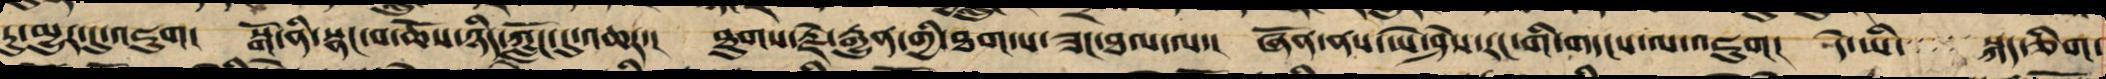རུ་མྱུར་དུ་འཇུག། སྒོ་ནི་སྣང་བ་ཆོས་ཉིད་ཀློང་དུ་འཆར་། ཐུགས་རྗེ་རྒྱུན་གྱི་ཐག་པ་ཟང་ཐལ་ལ་། ཞོན་ནས་ཡེ་ཤེས་རང་གི་གདངས་ལ་འཇུག། དེ་ཡི་་་་་་སྐད་ཅིག་
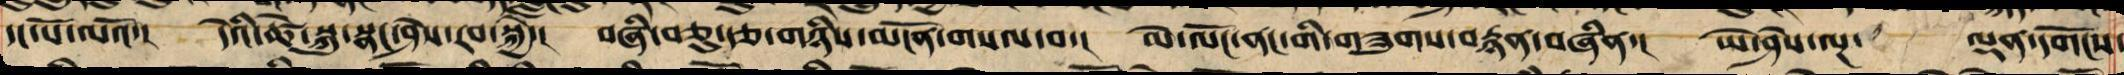དང་པོ་ལའོ་། དེའི་ཚེ་སྐུ་སྣང་ཤེས་རབ་སྐྱེ་། བཞི་བཅུ་རྩ་གཉིས་མངོན་གསལ་བ་། མེ་ལོང་ནང་གི་གཟུགས་བརྙན་བཞིན་། ཡེ་ཤེས་ལྔ་ ལྡན་དགོངས་
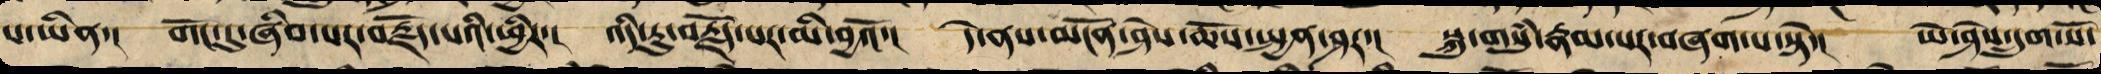པ་ཡིན་། གོང་དུ་ཞིབ་པར་བརྗོད་པའི་ཕྱིར་། འདི་རུ་བརྗོད་པར་མི་བྱའོ་། དེ་ནས་མངོན་ཤེས་ཆོས་སྤྱན་ཤར་། སྐུ་གསུཾ་རྣམ་པར་བཞག་པ་སྟེ་། ཡི་གེ་དྲུག་པོ་
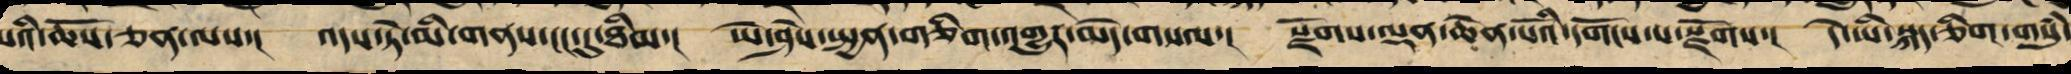པའི་ཆོས་ཅན་ལས་། འདས་ཏེ་མི་གནས་ངང་དུ་ཐིམ་། ཡེ་ཤེས་སྤྱན་གཅིག་འགྱུར་མེད་གསལ་། སྫོགས་ལྡན་ཆེན་པོའི་དགོངས་པ་སྫོགས་། དེ་ཡི་སྐད་ཅིག་གསུཾ་
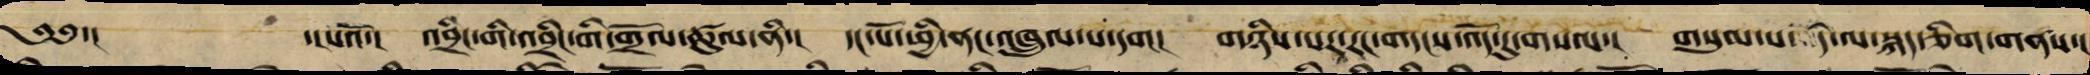༄༅་། ་།པའོ་། འབྲིང་གི་འབྲིང་གི་གྲོལ་ཚུལ་ནི་། དང་པོ་ཕྱི་ནང་འཁྲུལ་པ་དག། གཉིས་པར་རང་གདངས་འོད་དུ་གསལ་། གསུམ་པ་ དེ་ལ་སྐད་ཅིག་གནས་།
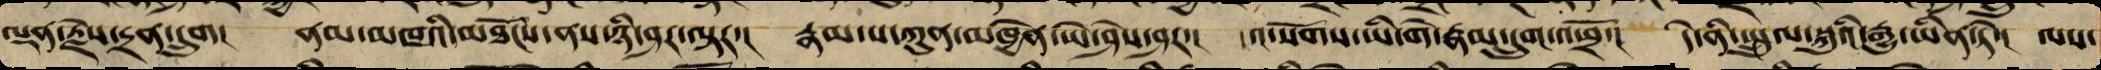ལྡན་རྗེས་དྲན་དྲུག། ནམ་མཁའི་མཐོངས་ནས་ཉི་ཤར་ལྟར་། རྣམ་པ་ཀུན་མཁྱེན་ཡེ་ཤེས་ཤར་། འ་སོགས་ཡི་གེ་རྣམ་དྲུག་འཕྲོ་། དེ་ནི་སྤྲུལ་སྐུའི་རྒྱུ་ཡིན་ཏེ་། ལས་
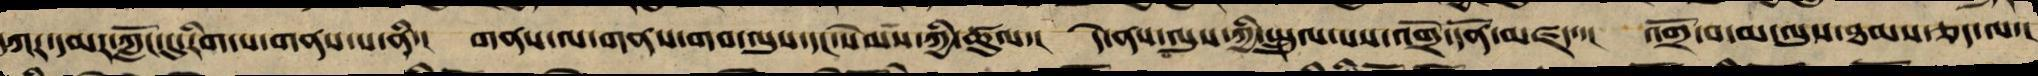དཀར་དམར་ཀློང་དུ་རིག་པ་གནས་པ་ནི་། གནས་ལ་གནས་གབ་ལུས་དང་སེམས་ཀྱི་ཚུལ་། དེ་ནས་ལུས་ཀྱི་སྤྲུལ་པས་འགྲོ་དོན་མཛད་་། འགྲོ་བ་མ་ལུས་ཐམས་ཅད་ལ་།
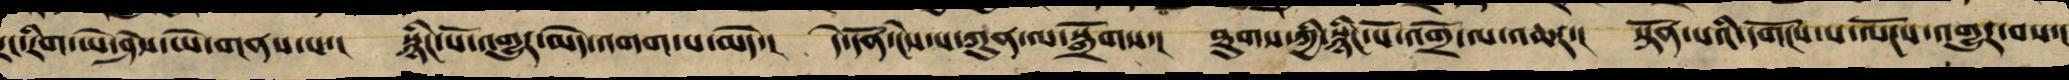རང་རིག་ཡེ་ཤེས་ཡེ་གནས་པ་། སྙིང་པོ་འགྱུར་མེད་འགག་པ་མེད་། དེ་དོན་ངེས་པ་ཀུན་ལ་སྒྲོགས་། ཐུགས་ཀྱི་སྙིང་པོ་འགྲོ་ལ་འཆར་། སྟོན་པའི་དགོངས་པ་ལོངས་འགྱུར་བས་།
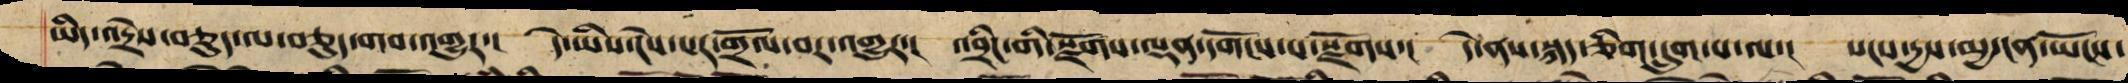ཡིད་འདྲེས་བཅུད་ལ་བཅུད་གབ་འགྱུར་། དེ་ཡིས་ངེས་པར་གྲོལ་བར་འགྱུར་། འབྲིང་གི་སྫོགས་ལྡན་དགོངས་པ་སྫོགས་། དེ་ནས་སྐད་ཅིག་དྲུག་པ་ལ་། སངས་དྱས་མྱ་ངན་ཡོངས་
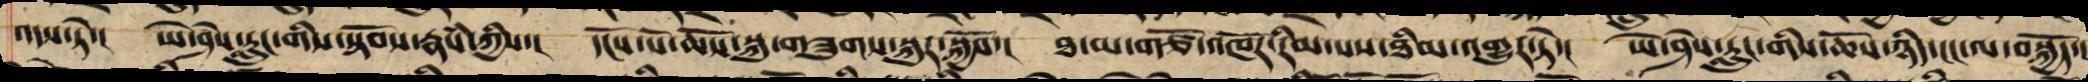འདས་ཏེ་། ཡེ་ཤེས་རླུང་གིས་སྟོབས་རྣཾས་ཀྱིས་། དངོས་པོ་ཆོས་སྐུ་གཟུགས་སྐུར་སྐྱོབ་། ཐ་མ་གཙོ་འཁོར་རིམ་པས་ཐིམ་འགྱུར་ཏེ་། ཡེ་ཤེས་རླུང་གིས་ཆོས་ཉིད་ངང་ལ་བསྐྱོད་།
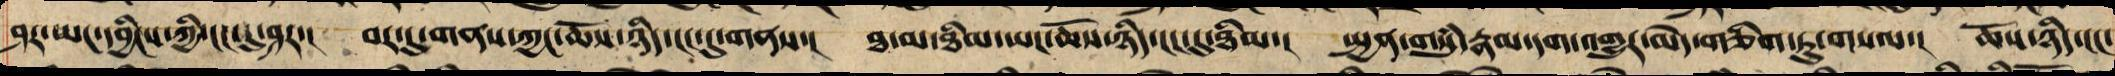ཤར་ཡང་དབྱིངས་ཀྱི་ངང་དུ་ཤར་། བར་དུ་གནས་ཀྱང་ཆོས་ཉིད་ངང་དུ་གནས་། ཐ་མ་ཐིམ་ཡང་ཆོས་ཉིད་ངང་དུ་ཐིམ་། སྤྱན་གསུཾ་རྣམ་དག་འགྱུར་མེད་གཅིག་ཏུ་གསལ་། ཆོས་ཉིད་ངང་
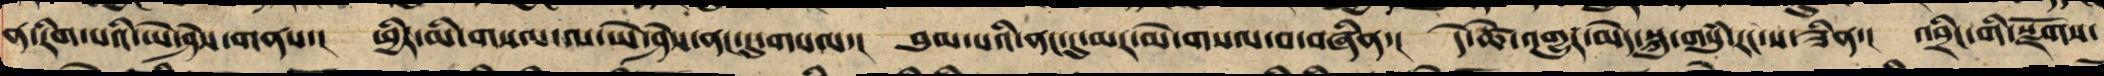ན་རིག་པའི་ཡེ་ཤེས་གནས་། ཕྱིར་མི་གསལ་ལ་ཡེ་ཤེས་ནང་དུ་གསལ་། བུམ་པའི་ནང་དུ་མར་མེ་གསལ་བ་བཞིན་། དེ་ཚེ་འགྱུར་མེད་སྐུ་གསུཾ་རང་ས་ཟིན་། འབྲིང་གི་སྫོགས་
